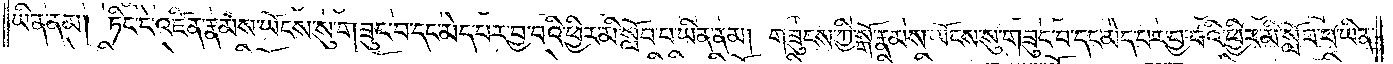ཡིན་ནམ། ཏིང་ངེ་འཛིན་རྣམས་ཡོངས་སུ་གཟུང་བ་དང་མེད་པར་བྱ་བའི་ཕྱིར་མི་སློབ་པ་ཡིན་ནམ། གཟུངས་ཀྱི་སྒོ་རྣམས་ཡོངས་སུ་གཟུང་བ་དང་མེད་པར་བྱ་བའི་ཕྱིར་མི་སློབ་པ་ཡིན་
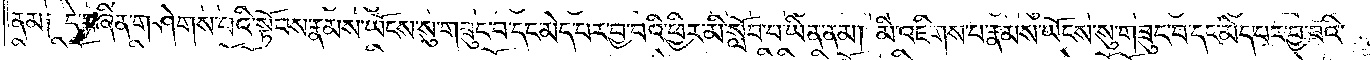ནམ༑ དེ་བཞིན་གཤེགས་པའི་སྟོབས་རྣམས་ཡོངས་སུ་གཟུང་བ་དང་མེད་པར་བྱ་བའི་ཕྱིར་མི་སློབ་པ་ཡིན་ནམ། མི་འཇིགས་པ་རྣམས་ཡོངས་སུ་གཟུང་བ་དང་མེད་པར་བྱ་བའི་
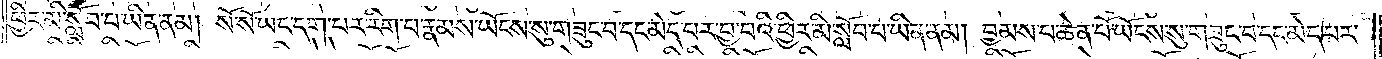ཕྱིར་མི་སློབ་པ་ཡིན་ནམ། སོ་སོ་ཡང་དག་པར་རིག་པ་རྣམས་ཡོངས་སུ་གཟུང་བ་དང་མེད་པར་བྱ་བའི་ཕྱིར་མི་སློབ་པ་ཡིན་ནམ། བྱམས་པ་ཆེན་པོ་ཡོངས་སུ་གཟུང་བ་དང་མེད་པར་
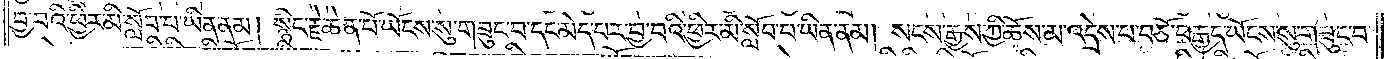བྱ་བའི་ཕྱིར་མི་སློབ་པ་ཡིན་ནམ། སྙིང་རྗེ་ཆེན་པོ་ཡོངས་སུ་གཟུང་བ་དང་མེད་པར་བྱ་བའི་ཕྱིར་མི་སློབ་པ་ཡིན་ནམ། སངས་རྒྱས་ཀྱི་ཆོས་མ་འདྲེས་པ་བཅོ་བརྒྱད་ཡོངས་སུ་གཟུང་བ་
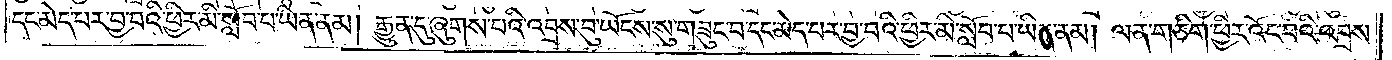དང་མེད་པར་བྱ་བའི་ཕྱིར་མི་སློབ་པ་ཡིན་ནམ། རྒྱུན་དུ་ཞུགས་པའི་འབྲས་བུ་ཡོངས་སུ་གཟུང་བ་དང་མེད་པར་བྱ་བའི་ཕྱིར་མི་སློབ་པ་ཡིན་ནམ། ལན་ཅིག་ཕྱིར་འོང་བའི་འབྲས་
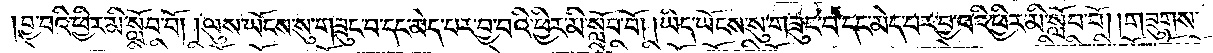བྱ་བའི་ཕྱིར་མི་སློབ་བོ། །ལུས་ཡོངས་སུ་གཟུང་བ་དང་མེད་པར་བྱ་བའི་ཕྱིར་མི་སློབ་བོ། །ཡིད་ཡོངས་སུ་གཟུང་བ་དང་མེད་པར་བྱ་བའི་ཕྱིར་མི་སློབ་བོ། །གཟུགས་
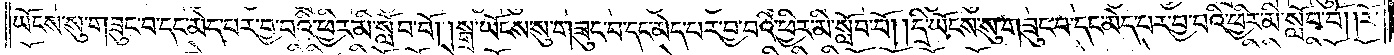ཡོངས་སུ་གཟུང་བ་དང་མེད་པར་བྱ་བའི་ཕྱིར་མི་སློབ་བོ། །སྒྲ་ཡོངས་སུ་གཟུང་བ་དང་མེད་པར་བྱ་བའི་ཕྱིར་མི་སློབ་བོ། །དྲི་ཡོངས་སུ་གཟུང་བ་དང་མེད་པར་བྱ་བའི་ཕྱིར་མི་སློབ་བོ། །རོ་
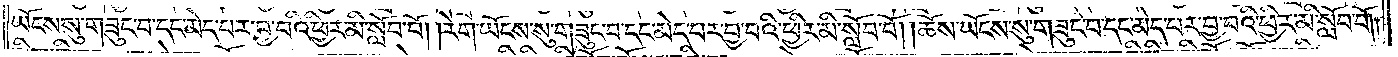ཡོངས་སུ་གཟུང་བ་དང་མེད་པར་བྱ་བའི་ཕྱིར་མི་སློབ་བོ། །རེག་ཡོངས་སུ་གཟུང་བ་དང་མེད་པར་བྱ་བའི་ཕྱིར་མི་སློབ་བོ། །ཆོས་ཡོངས་སུ་གཟུང་བ་དང་མེད་པར་བྱ་བའི་ཕྱིར་མི་སློབ་བོ༎
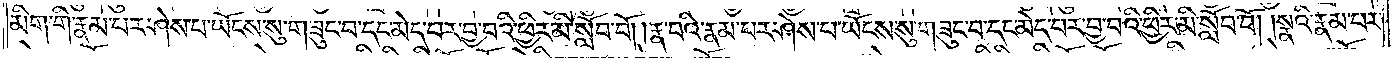མིག་གི་རྣམ་པར་ཤེས་པ་ཡོངས་སུ་གཟུང་བ་དང་མེད་པར་བྱ་བའི་ཕྱིར་མི་སློབ་བོ། །རྣ་བའི་རྣམ་པར་ཤེས་པ་ཡོངས་སུ་གཟུང་བ་དང་མེད་པར་བྱ་བའི་ཕྱིར་མི་སློབ་བོ། །སྣའི་རྣམ་པར་
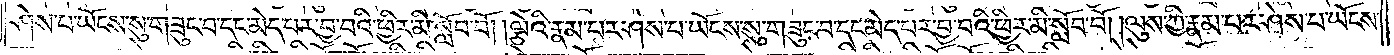ཤེས་པ་ཡོངས་སུ་གཟུང་བ་དང་མེད་པར་བྱ་བའི་ཕྱིར་མི་སློབ་བོ། །ལྕེའི་རྣམ་པར་ཤེས་པ་ཡོངས་སུ་གཟུང་བ་དང་མེད་པར་བྱ་བའི་ཕྱིར་མི་སློབ་བོ། །ལུས་ཀྱི་རྣམ་པར་ཤེས་པ་ཡོངས་
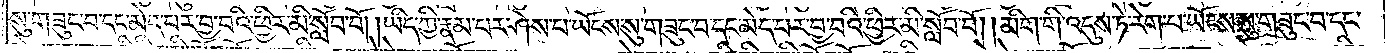སུ་གཟུང་བ་དང་མེད་པར་བྱ་བའི་ཕྱིར་མི་སློབ་བོ། །ཡིད་ཀྱི་རྣམ་པར་ཤེས་པ་ཡོངས་སུ་གཟུང་བ་དང་མེད་པར་བྱ་བའི་ཕྱིར་མི་སློབ་བོ། །མིག་གི་འདུས་ཏེ་རེག་པ་ཡོངས་སུ་གཟུང་བ་དང་
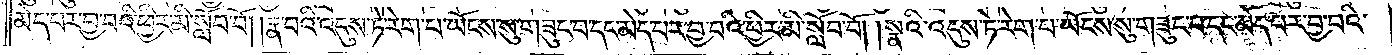མེད་པར་བྱ་བའི་ཕྱིར་མི་སློབ་བོ། །རྣ་བའི་འདུས་ཏེ་རེག་པ་ཡོངས་སུ་གཟུང་བ་དང་མེད་པར་བྱ་བའི་ཕྱིར་མི་སློབ་བོ། །སྣའི་འདུས་ཏེ་རེག་པ་ཡོངས་སུ་གཟུང་བ་དང་མེད་པར་བྱ་བའི་
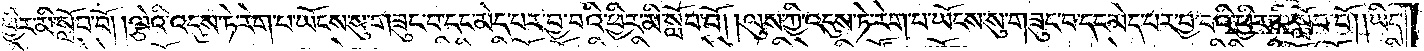ཕྱིར་མི་སློབ་བོ། །ལྕེའི་འདུས་ཏེ་རེག་པ་ཡོངས་སུ་གཟུང་བ་དང་མེད་པར་བྱ་བའི་ཕྱིར་མི་སློབ་བོ། །ལུས་ཀྱི་འདུས་ཏེ་རེག་པ་ཡོངས་སུ་གཟུང་བ་དང་མེད་པར་བྱ་བའི་ཕྱིར་མི་སློབ་བོ། །ཡིད་
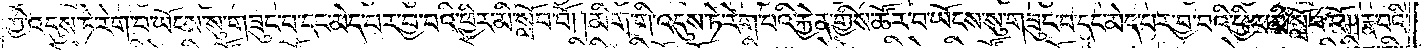ཀྱི་འདུས་ཏེ་རེག་པ་ཡོངས་སུ་གཟུང་བ་དང་མེད་པར་བྱ་བའི་ཕྱིར་མི་སློབ་བོ། །མིག་གི་འདུས་ཏེ་རེག་པའི་རྐྱེན་གྱིས་ཚོར་བ་ཡོངས་སུ་གཟུང་བ་དང་མེད་པར་བྱ་བའི་ཕྱིར་མི་སློབ་བོ། །རྣ་བའི་
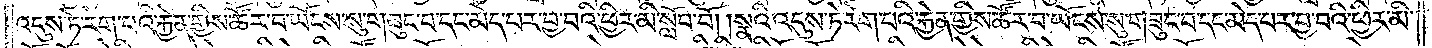འདུས་ཏེ་རེག་པའི་རྐྱེན་གྱིས་ཚོར་བ་ཡོངས་སུ་གཟུང་བ་དང་མེད་པར་བྱ་བའི་ཕྱིར་མི་སློབ་བོ། །སྣའི་འདུས་ཏེ་རེག་པའི་རྐྱེན་གྱིས་ཚོར་བ་ཡོངས་སུ་གཟུང་བ་དང་མེད་པར་བྱ་བའི་ཕྱིར་མི་
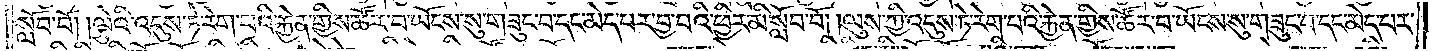སློབ་བོ། །ལྕེའི་འདུས་ཏེ་རེག་པའི་རྐྱེན་གྱིས་ཚོར་བ་ཡོངས་སུ་གཟུང་བ་དང་མེད་པར་བྱ་བའི་ཕྱིར་མི་སློབ་བོ། །ལུས་ཀྱི་འདུས་ཏེ་རེག་པའི་རྐྱེན་གྱིས་ཚོར་བ་ཡོངས་སུ་གཟུང་བ་དང་མེད་པར་
